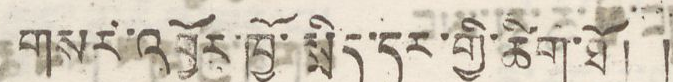གསར་འབྱོར་ཁྱོ་སྨིད་དར་གྱི་ཚིག་ཐོ། །
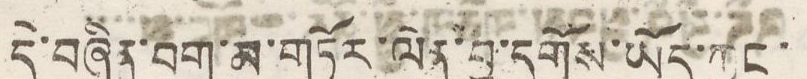དེ་བཞིན་བག་མ་གཏོར་ལེན་བྱ་དགོས་ཡོད་ཀྱང་
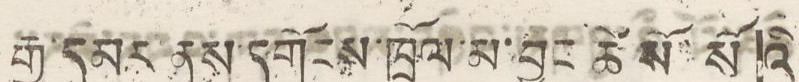རྒྱ་དམར ནས་དགོངས་ཁྲོལ་མ་བྱུང ཚེ སོ་སོའི
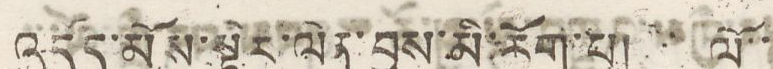འདོད་མོས་སྟེར་ལེན་བྱས་མི་ཆོག་པ། ལོ་་
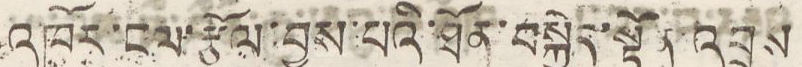འཁོར་ངལ་རྩོལ་བྱས་པའི་ཐོན་བསྐྱེད་སྟོན་འབྲས
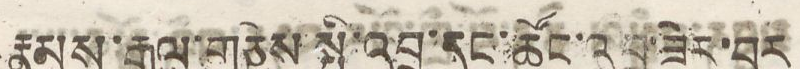རྣམས་རྒྱལ་གཅེས་སྤྱི་འབྲུ་དང་ཚོང་འབྲུ་ཟེར་བར
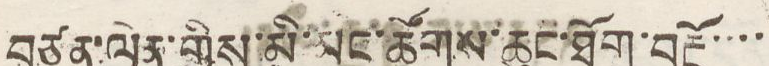བཙན་ལེན་གྱིས་མི་མང་ཚོགས་ཆུང་ཐོག་བརྔོ་་་་
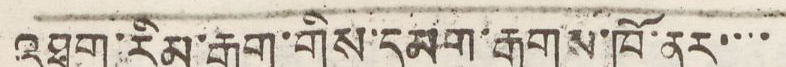འཐག་རིམ་རྒྱག་གིས་དམག་རྒྱགས་ཁོ་ནར་་་་
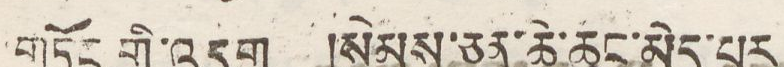གཏོང་གི་འདུག །སེམས་ཅན་ཆེ་ཆུང་མེད་པར
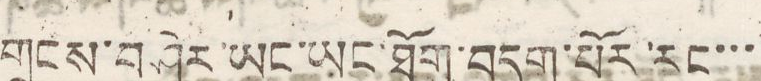གྲངས་བཤེར་ཡང་ཡང་ཐོག་བདག་པོར་རང་་་
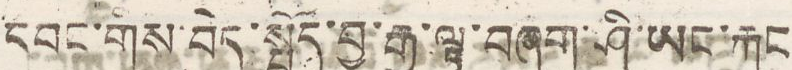དབང་གིས་བདེ་སྤྱོད་བྱ་རྒྱུ་ལྟ་བཞག་ཤི་ཡང་རྐང
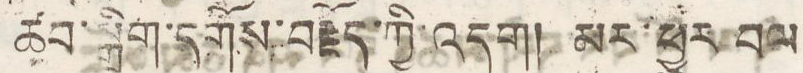ཚུབ་སྒྲིག་དགོས་བརྗོད་ཀྱི་འདུག། མར་ཕྱུར བལ
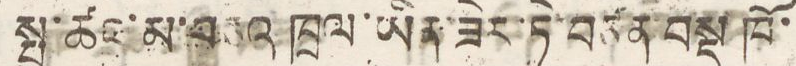སྤུ་ཚང་མ་བཅའ་ཁྲལ་ཡིན་ཟེར་ཏེ་བཙན་བསྡུ ཁོ་
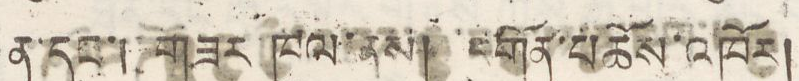ན་དང་། གཟར་ཁུལ་ནས། དགོན་པ་ཆོས་འཁོར།
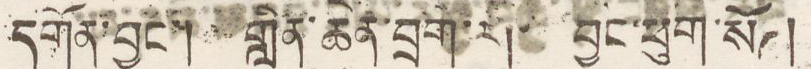དགོན་བྱང་། གླིང་ཆེན་བྲག་རི། བྱང་ཕུག་སོཌ།
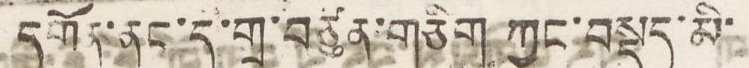དགོན་ནང་དུ་གྲ་བཙུན་གཅིག ཀྱང་བསྡད་མི་
